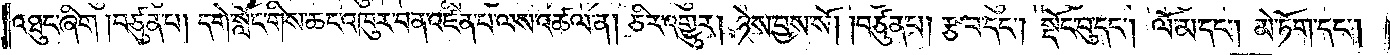འཐུང་ཞིག །བཙུན་པ། དགེ་སློང་གིས་ཆང་འཁུར་བ་ན་འཛིན་པ་ལས་འཚལ་ན། ཅིར་འགྱུར། ཉེས་བྱས་སོ། །བཙུན་པ། རྩ་བ་དང༌། སྡོང་བུ་དང༌། ལོ་མ་དང༌། མེ་ཏོག་དང༌།
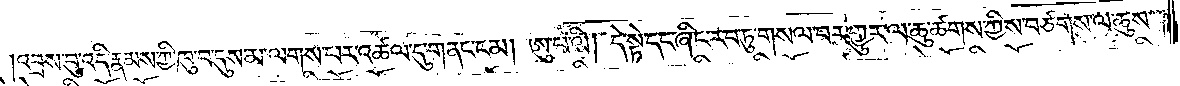།འབྲས་བུ་འདི་རྣམས་ཀྱི་ཁུ་བ་དུས་མ་ལགས་པར་འཚལ་དུ་གནང་ངམ། ཨུ་པ་ལི། དེ་སྟེ་དང་ཞིང་རབ་ཏུ་གསལ་བར་གྱུར་ལ་ཆུ་ཚགས་ཀྱིས་བཙགས་ལ་ཆུས་
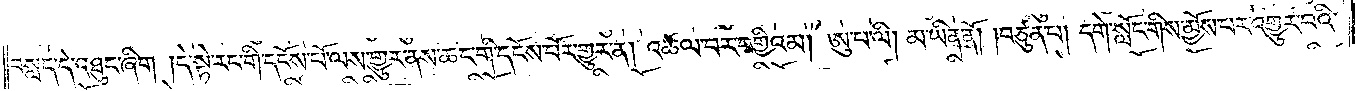བསླད་དེ་འཐུང་ཞིག །དེ་སྟེ་རང་གི་དངོས་པོ་ལས་གྱུར་ནས་ཆང་གི་དངོས་པོར་གྱུར་ན། འཚལ་བར་བགྱིའམ། ཨུ་པ་ལི། མ་ཡིན་ནོ། །བཙུན་པ། དགེ་སློང་གིས་མྱོས་པར་འགྱུར་བའི་
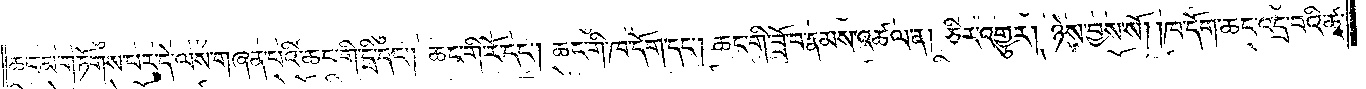ཆང་མ་གཏོགས་པར་དེ་ལས་གཞན་པའི་ཆང་གི་དྲི་དང༌། ཆང་གི་རོ་དང༌། ཆང་གི་ཁ་དོག་དང༌། ཆང་གི་བྲོ་བ་རྣམས་འཚལ་ན། ཅིར་འགྱུར། ཉེས་བྱས་སོ། །ཁ་དོག་ཆང་འདྲ་བའི་ཚྭ་
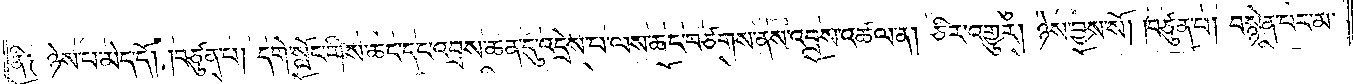ནི༑ ཉེས་པ་མེད་དོ། །བཙུན་པ། དགེ་སློང་གིས་ཆང་དང་འབྲས་ཆན་དུ་འདྲེས་པ་ལས་ཆང་བཙགས་ནས་འབྲས་འཚལ་ན། ཅིར་འགྱུར། ཉེས་བྱས་སོ། །བཙུན་པ། བསྙེན་པར་མ་
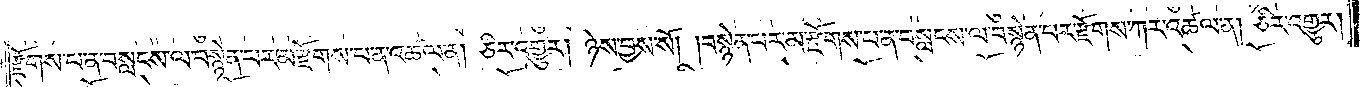རྫོགས་པ་ན་བསླངས་ལ་བསྙེན་པར་མ་རྫོགས་པ་ན་འཚལ་ན། ཅིར་འགྱུར། ཉེས་བྱས་སོ། །བསྙེན་པར་མ་རྫོགས་པ་ན་བསླངས་ལ་བསྙེན་པར་རྫོགས་ཀར་འཚལ་ན། ཅིར་འགྱུར།
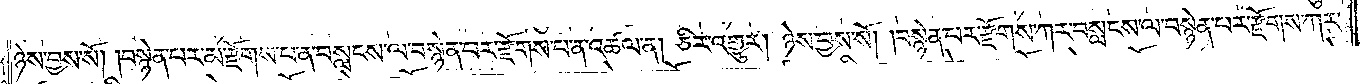ཉེས་བྱས་སོ། །བསྙེན་པར་མ་རྫོགས་པ་ན་བསླངས་ལ་བསྙེན་པར་རྫོགས་པ་ན་འཚལ་ན། ཅིར་འགྱུར། ཉེས་བྱས་སོ། །བསྙེན་པར་རྫོགས་ཀར་བསླངས་ལ་བསྙེན་པར་རྫོགས་ཀར་
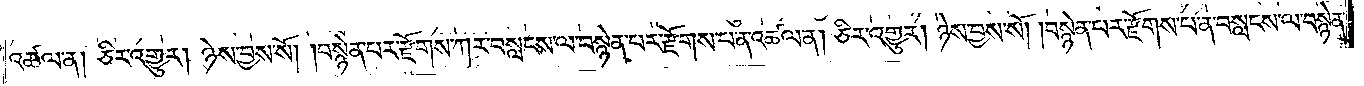འཚལ་ན། ཅིར་འགྱུར། ཉེས་བྱས་སོ། །བསྙེན་པར་རྫོགས་ཀར་བསླངས་ལ་བསྙེན་པར་རྫོགས་པ་ན་འཚལ་ན། ཅིར་འགྱུར། ཉེས་བྱས་སོ། །བསྙེན་པར་རྫོགས་པ་ན་བསླངས་ལ་བསྙེན་
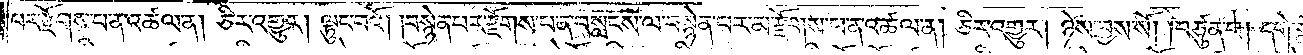པར་རྫོགས་པ་ན་འཚལ་ན། ཅིར་འགྱུར། ལྟུང་བའོ། །བསྙེན་པར་རྫོགས་པ་ན་བསླངས་ལ་བསྙེན་པར་མ་རྫོགས་པ་ན་འཚལ་ན། ཅིར་འགྱུར། ཉེས་བྱས་སོ། །བཙུན་པ། དགེ་
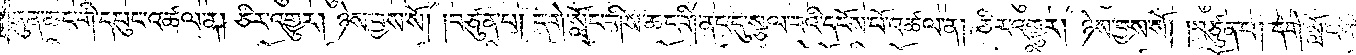རྒུན་ཆང་གི་དཔུང་འཚལ་ན། ཅིར་འགྱུར། ཉེས་བྱས་སོ། །བཙུན་པ། དགེ་སློང་གིས་ཆང་གི་ནང་དུ་སྩལ་བའི་དངོས་པོ་འཚལ་ན། ཅིར་འགྱུར། ཉེས་བྱས་སོ། །བཙུན་པ། དགེ་སློང་གིས་
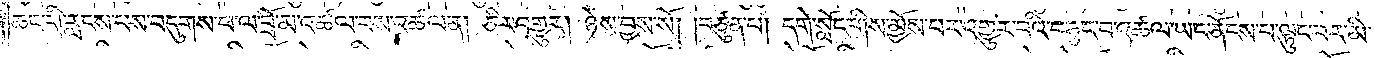ཆང་གི་རླངས་པས་བདུགས་པ་ལ་བྲོ་མ་འཚལ་བས་འཚལ་ན། ཅིར་འགྱུར། ཉེས་བྱས་སོ། །བཙུན་པ། དགེ་སློང་གིས་མྱོས་པར་འགྱུར་བའི་བཏུང་བ་འཚལ་ཡང་ནོངས་པ་ལྟུང་བར་མི་
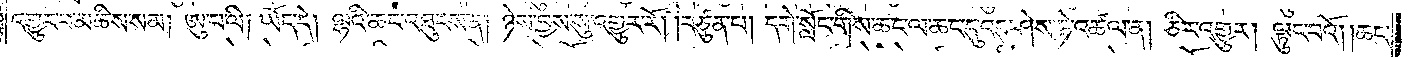འགྱུར་བ་མཆིས་སམ། ཨུ་པ་ལི། ཡོད་དེ། ལྷའི་ཆང་འཐུངས་ན། ཉེས་བྱས་སུ་འགྱུར་རོ། །བཙུན་པ། དགེ་སློང་གིས་ཆང་ལ་ཆང་དུ་འདུ་ཤེས་ཏེ་འཚལ་ན། ཅིར་འགྱུར། །ལྟུང་བའོ། །ཆང་
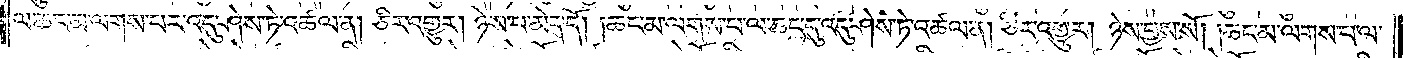ལ་ཆང་མ་ལགས་པར་འདུ་ཤེས་ཏེ་འཚལ་ན། ཅིར་འགྱུར། ཉེས་པ་མེད་དོ། །ཆང་མ་ལགས་པ་ལ་ཆང་དུ་འདུ་ཤེས་ཏེ་འཚལ་ན། ཅིར་འགྱུར། ཉེས་བྱས་སོ། །ཆང་མ་ལགས་པ་ལ་
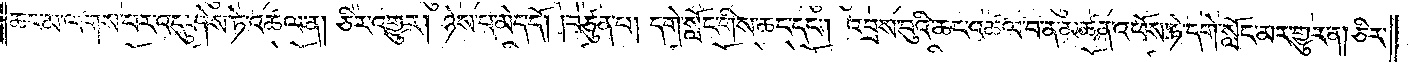ཆང་མ་ལགས་པར་འདུ་ཤེས་ཏེ་འཚལ་ན། ཅིར་འགྱུར། ཉེས་པ་མེད་དོ། །བཙུན་པ། དགེ་སློང་གིས་ཆང་དང༌། འབྲས་བུའི་ཆང་འཚལ་བ་ན་མཚན་འཕོས་ཏེ་དགེ་སློང་མར་གྱུར་ན། ཅིར་
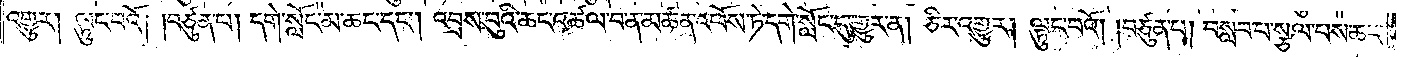འགྱུར། ལྟུང་བའོ། །བཙུན་པ། དགེ་སློང་མ་ཆང་དང༌། འབྲས་བུའི་ཆང་འཚལ་བ་ན་མཚན་འཕོས་ཏེ་དགེ་སློང་དུ་གྱུར་ན། ཅིར་འགྱུར། ལྟུང་བའོ། །བཙུན་པ། བསླབ་པ་སྩལ་པས་ཆང་
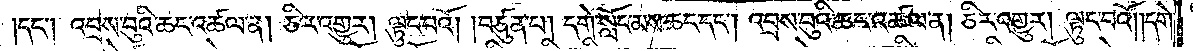དང༌། འབྲས་བུའི་ཆང་འཚལ་ན། ཅིར་འགྱུར། ལྟུང་བའོ། །བཙུན་པ། དགེ་སློང་མས་ཆང་དང༌། འབྲས་བུའི་<gap>འཚལ་ན། ཅིར་འགྱུར། ལྟུང་བའོ། །དགེ་
